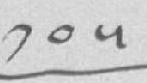༡༠༥
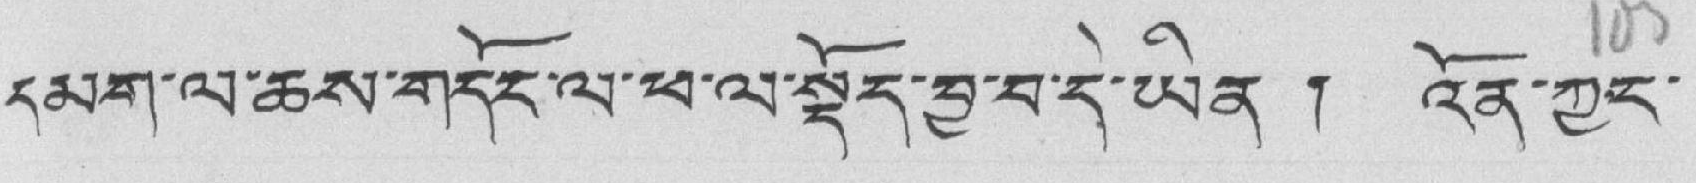དམག་ལ་ཆས་གདོང་ལ་ཕ་ལ་སྡོད་བྱ་བ་དེ་ཡིན ། འོན་ཀྱང་
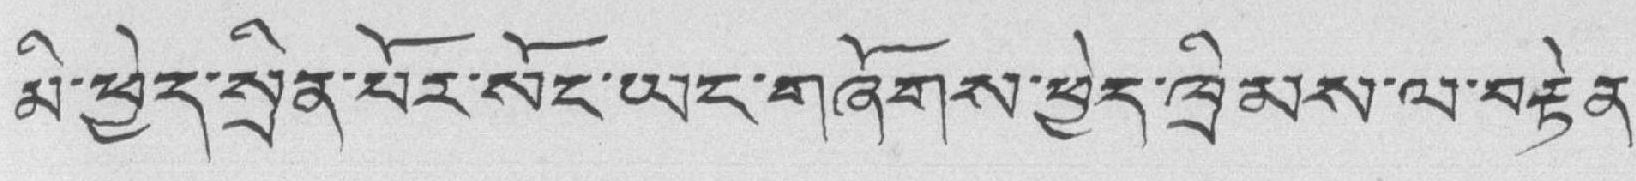མི་ཕྱེད་སྲིན་པོར་སོང་ཡང་གཞོགས་ཕྱེད་ཁྲིམས་ལ་བརྟེན་
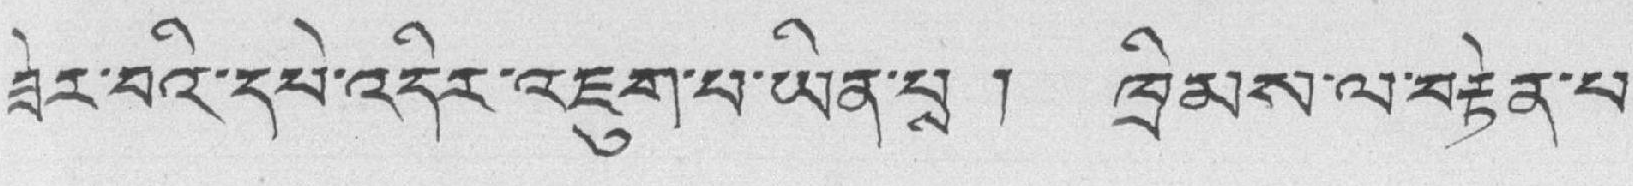ཟེར་བའི་དཔེ་འདིར་འཇུག་པ་ཡིན་པྶ ། ཁྲིམས་ལ་བརྟེན་པ་
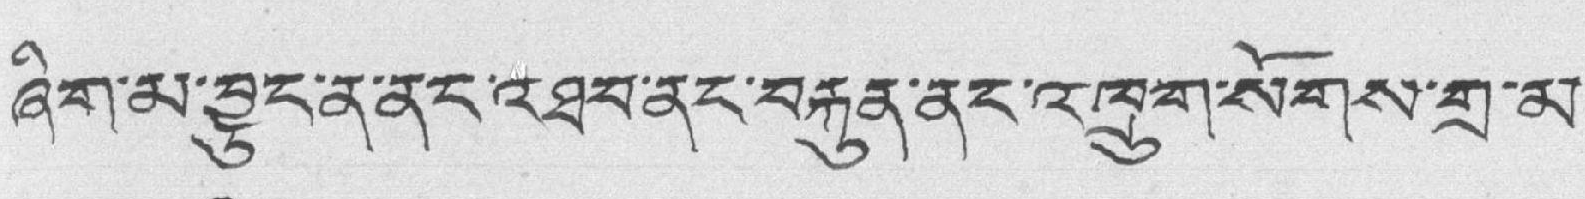ཞིག་མ་བྱུང་ན་ནང་འཐབ་ནང་བརྐུན་ནང་འཁྲུག་སོགས་གྲ་མ་
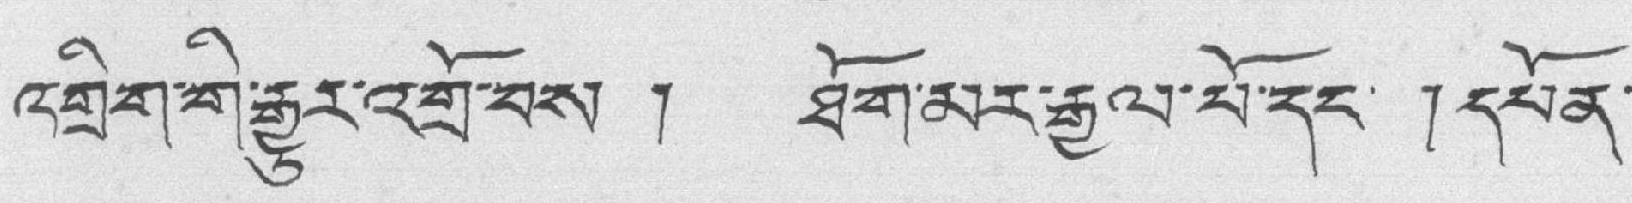འགྲིག་གི་རྒྱུར་འགྲོ་བས ། ཐོག་མར་རྒྱལ་པོ་དང་ ། དཔོན་
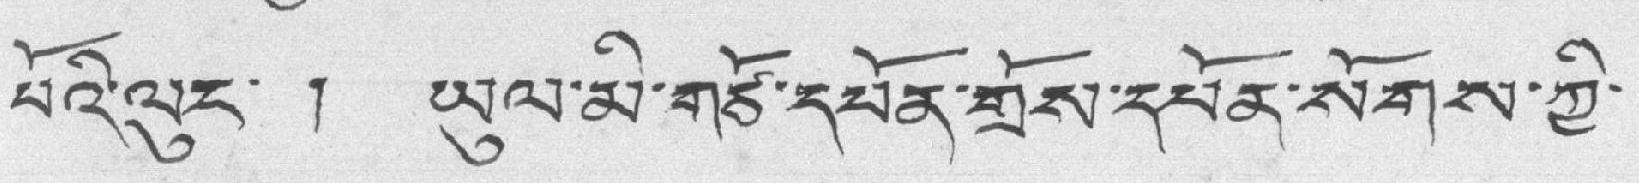པོའི་ལུང་ ། ཡུལ་མི་གཙོ་དཔོན་གྲོས་དཔོན་སོགས་ཀྱི་
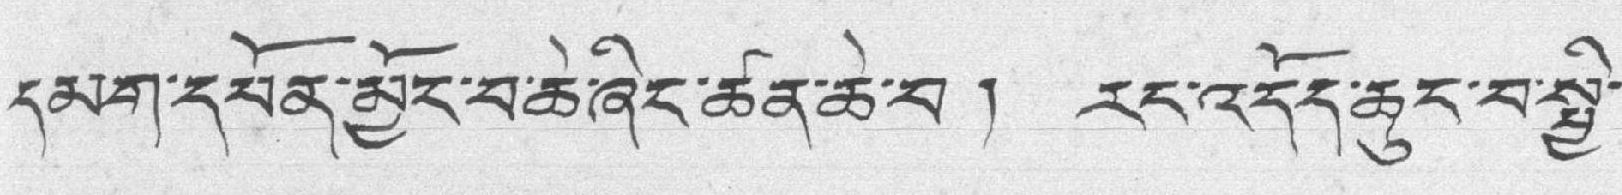དམག་དཔོན་མྱོང་བ་ཆེ་ཞིང་ཚན་ཆེ་བ ། རང་འདོད་ཆུང་བ་སྤྱི་
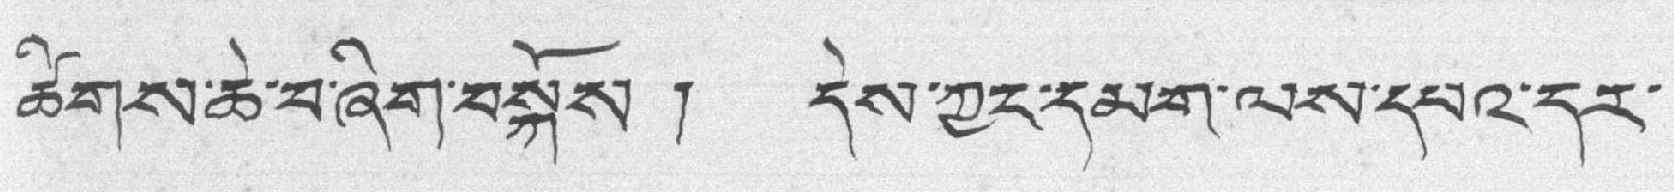ཚོགས་ཆེ་བ་ཞིག་བསྐོས ། དེས་ཀྱང་དམག་ལས་དཔའ་དར་
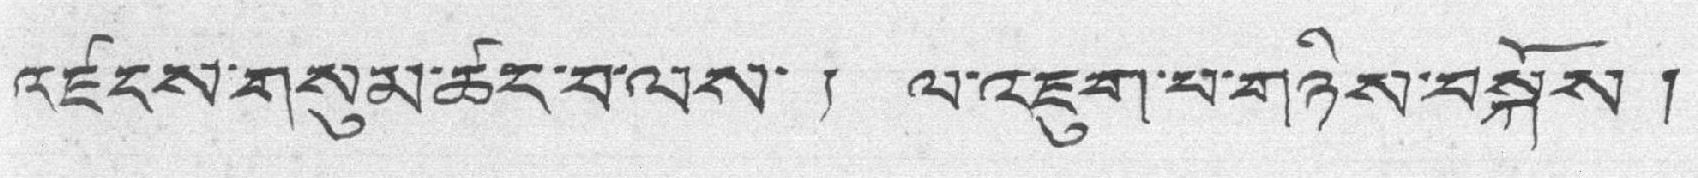འཛངས་གསུམ་ཚང་བ་ལས་ ། ལ་འཇུག་པ་གཉིས་བསྐོས །
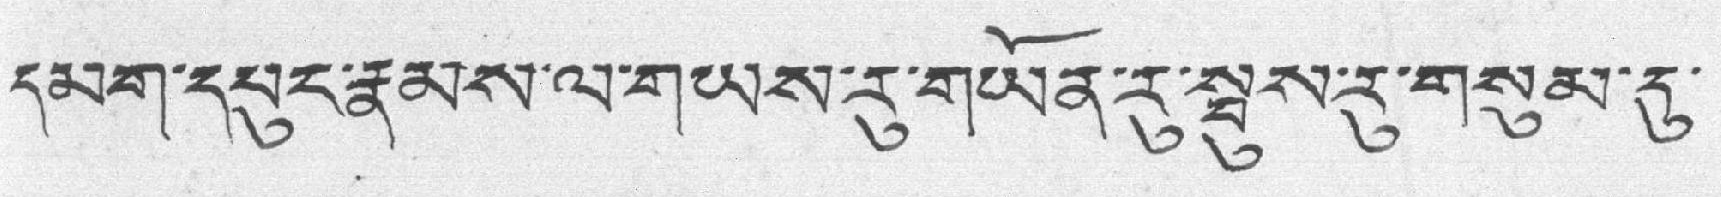དམག་དཔུང་རྣམས་ལ་གཡས་རུ་གཡོན་རུ་སྦུས་རུ་གསུམ་དུ་
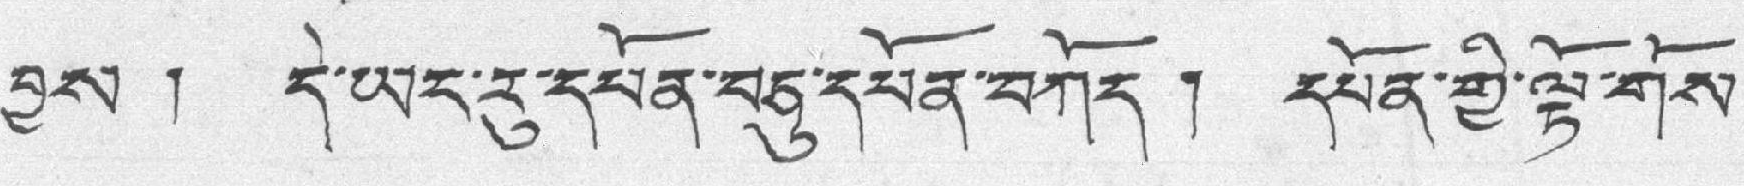བྱས ། དེ་ཡང་རུ་དཔོན་བཅུ་དཔོན་བཀོད ། དཔོན་གྱི་ལྟོ་གོས་
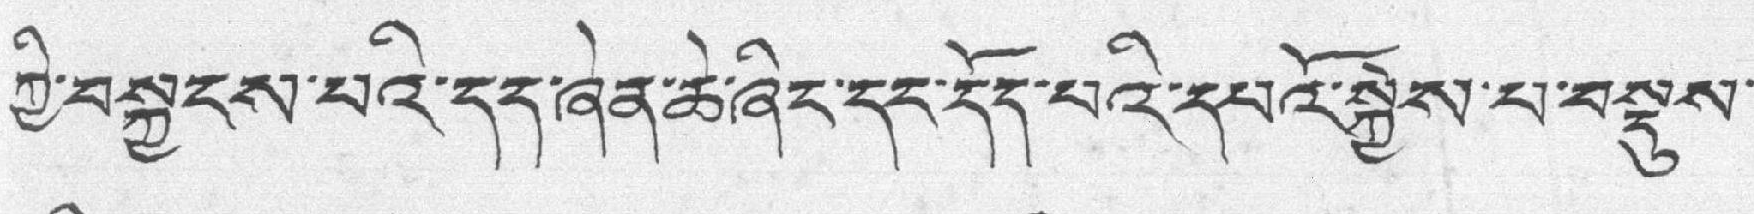ཀྱི་བསྐྱངས་པའི་དད་ཞེན་ཆེ་ཞིང་དང་དོད་པའི་དཔའོ་སྐྱེས་པ་བསྡུས་
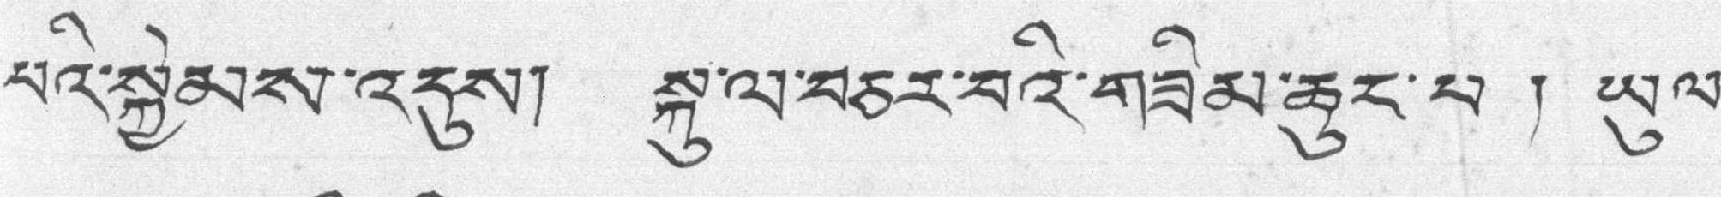པའི་སྐྱེམས་འདུས། སྐུ་ལ་བཅར་བའི་གཟིམ་ཆུང་པ ། ཡུལ་
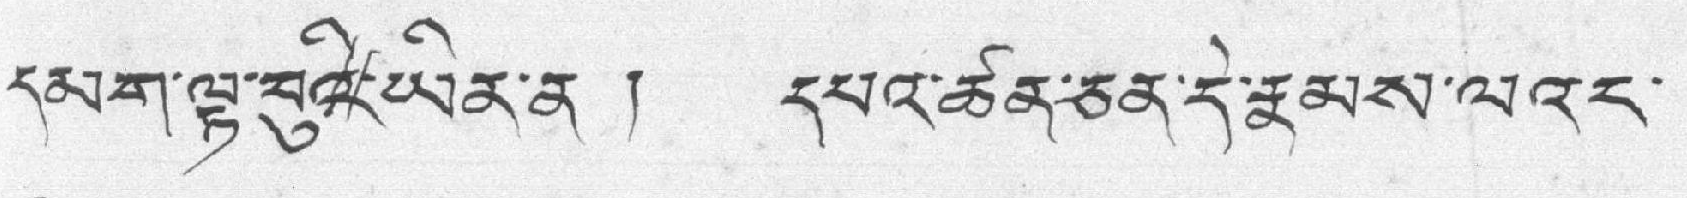དམག་ལྟ་བུའི་ཡིན་ན ། དཔའ་ཚན་ཅན་དེ་རྣམས་ལའང་
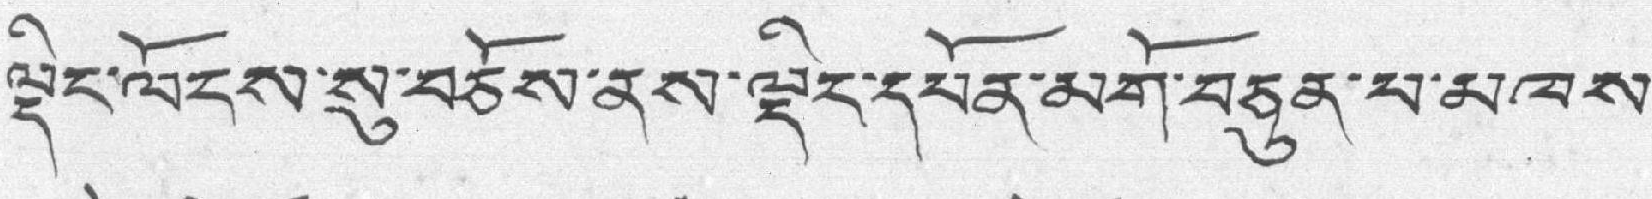ལྡིང་ལོངས་སུ་བཅོས་ནས་ལྡིང་དཔོན་མགོ་བཅུན་པ་མཁས་
